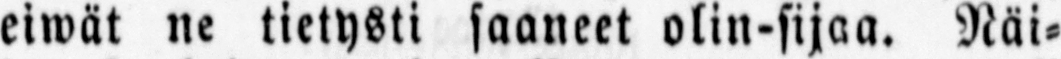eiwät ne tietysti saaneet olin-sijaa. Näi-
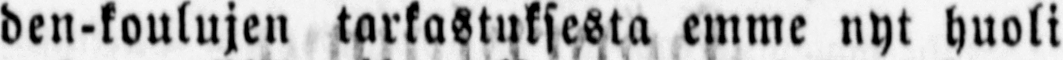den-koulujen tarkastuksesta emme nyt huoli
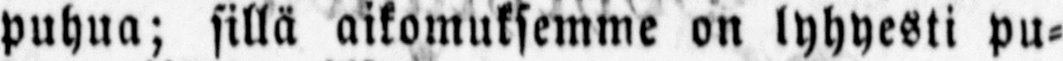puhua; sillä aikomuksemme on lyhyesti pu-
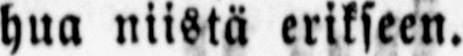hua niistä erikseen.
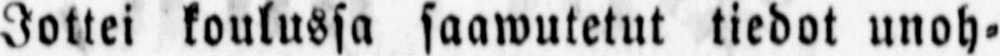Jottei koulussa saawutetut tiedot unoh-
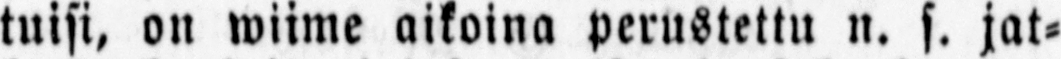tuisi, on wiime aikoina perustettu n. s. jat-
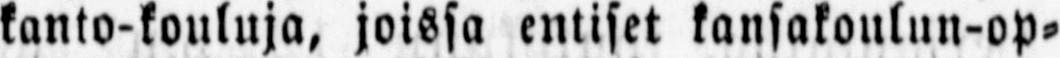kanto-kouluja, joissa entiset kansakoulun-op-
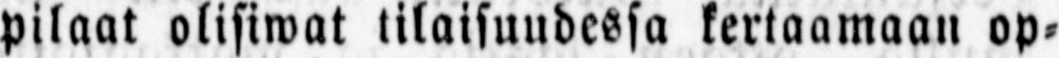pilaat olisiwat tilaisuudessa kertaamaan op-
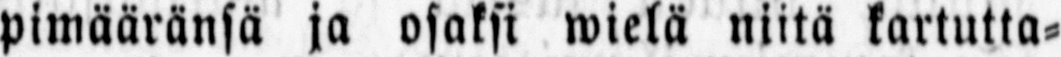pimääränsä ja osaksi wielä niitä kartutta-
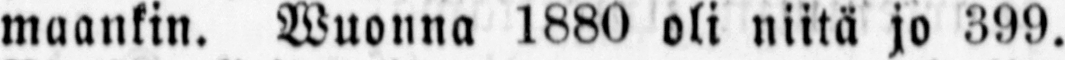maankin. Wuonna 1880 oli niitä jo 399.
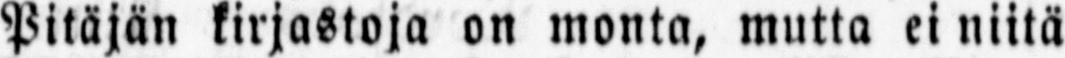Pitäjän kirjastoja on monta, mutta ei niitä
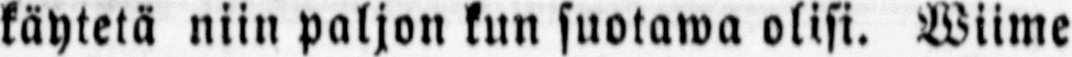käytetä niin paljon kun suotawa olisi. Wiime
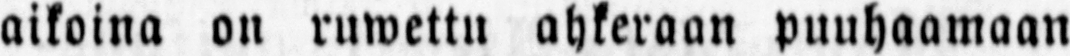aikoina on ruwettu ahkeraan puuhaamaan
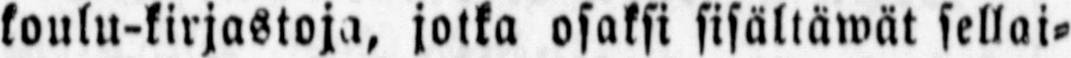koulu-kirjastoja, jotka osaksi sisältäwät sellai-
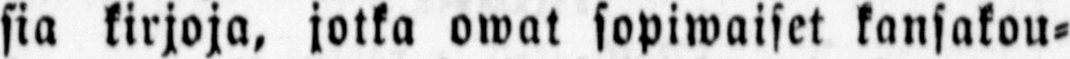sia kirjoja, jotka owat sopiwaiset kansakou-
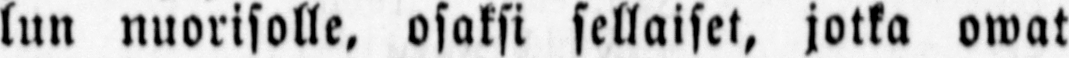lun nuorisolle, osaksi sellaiset, jotka owat
